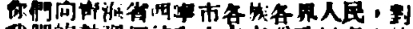你們向靑海省西寧市各族各界人民，對
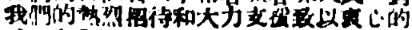我們的熱烈招待和大力支援致以衷心的
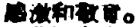感激和敬意。
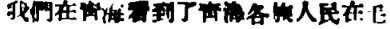我們在靑海看到了靑海各族人民在毛
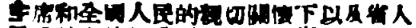主席和全國人民的親切關懷下以及省人
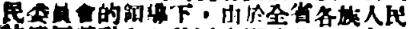民委員會的領導下，由於全省各族人民
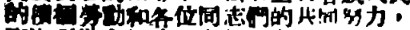的積極勞動和各位同志們的共同努力，
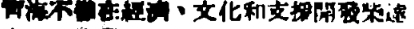靑海不僅在經濟、文化和支援開發柴達
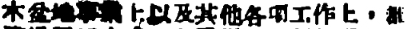木盆地事業上以及其他各項工作上，都
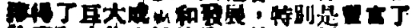獲得了巨大成就和發展，特別是豐富了
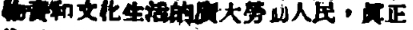經濟和文化生活的廣大勞動人民，眞正
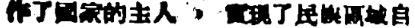作了國家的主人 ，實現了民族區域自
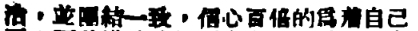治，並團結一致，信心百倍的爲着自己
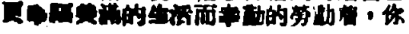更幸福美滿的生活而辛勤的勞動着，你
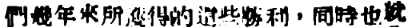們幾年來所獲得的這些勝利，同時也就
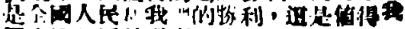是全國人民和我們的勝利，這是值得我
